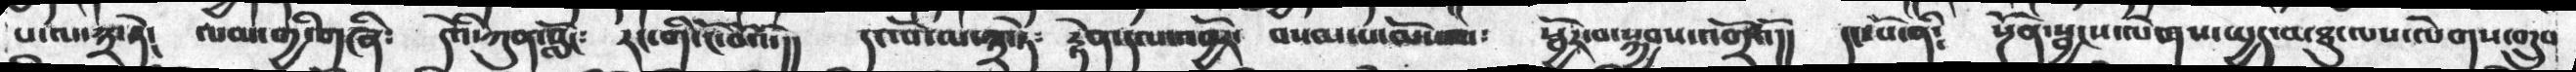ལ་ལ་༣་སྟེ༴   ལམ་གྱི་གཞི༴   དེའི་ཀུན་སློང༴    རང་གི་ངོ་བོའོ་།།   དང་པོ་མ་༣་ཏེ༴   རྟེན་དལ་འབྱོར་   བསམ་པ་མོས་པ༴  སྦྱོར་བ་སྐྱབས་འགྲོའོ།།   དང་པོ་ནི༴    སྔོན་སྦྱངས་ལེགས་སྤྱད་མཐུ་ལས་ལེགས་གྲུབ
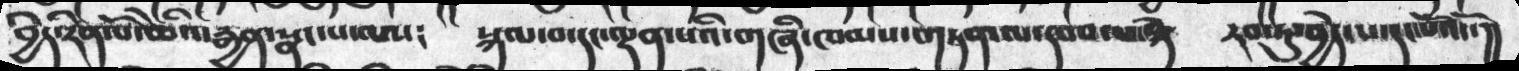བྱིད་རིན་པོ་ཆེའི་རྒྱན་སྣང་པ་ལས༴ སྐལ་བ་དང་ལྡན་པའི་གཞི་ཁམས་གཏན་ལ་དབབ་པ་སྟེ རབ་ཏུ་བྱེད་པ་དང་པོའོ་།།
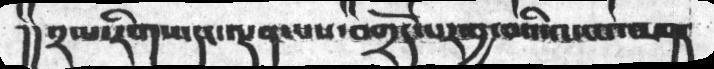།།༢་པ་རིགས་དང་ལྡན་པས་བགྲོད་པར་བྱ་བའི་ལམ་བཤད
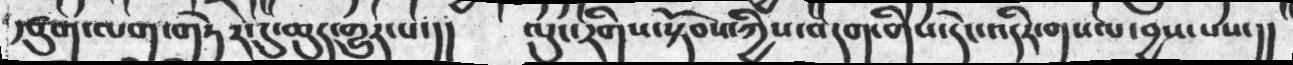ཙུག་ལག་གཏེར་དུ་ཆུད་གྱུར་པ་།། ལུང་རིགས་སྟོབས་ཀྱིས་བདག་གིས་དེང་འདིར་གསལ་བྱས་པས་།།
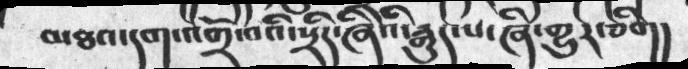མཐའ་དག་འགྲོ་བའི་སྲིད་ཞིའི་རྒུད་པ་ཞི་གྱུར་ཅིག།
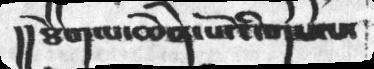།།ཐེག་པ་ཆེན་པོའི་གསལ་
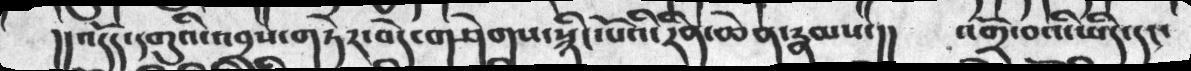།།འདོད་དགུའི་འབྲས་གཏེར་བདེ་གཤེགས་སྙིང་པོའི་རིན་ཆེན་རྣམས་།། འགྲོ་བའི་ཡིད་དང་
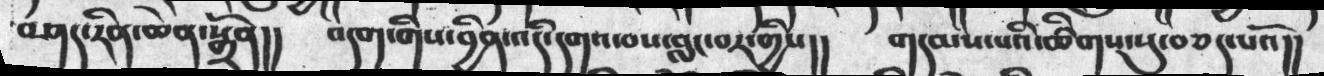བཤད་རིན་ཆེན་སྒྲོན།། བདག་གིས་བྱིན་འདི་དགའ་བས་བླང་བར་གྱིས།། གདམས་པའི་ཚིགས་སུ་བཅད་པའོ།།
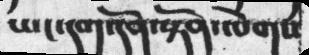ཡང་དག་དོན་སྟོན་ལེགས
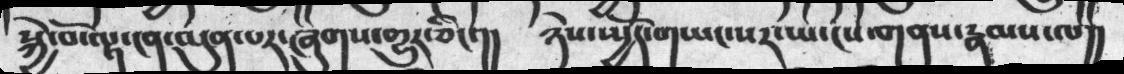སྐྱེ་བོ་ལྟ་ངན་མུན་པར་ཞུགས་གྱུར་ཅིང་།། ཉེས་སྤྱོད་གཡང་སར་ཡ་ངས་གནས་རྣམས་ལ།།
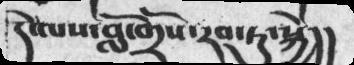དེ་ལས་བློ་གྲོས་རབ་ཏུ་སྐྱེ།།
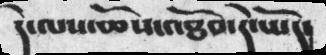དེ་ལས་ཆོས་འཐོབ་དེ་ཡོང་
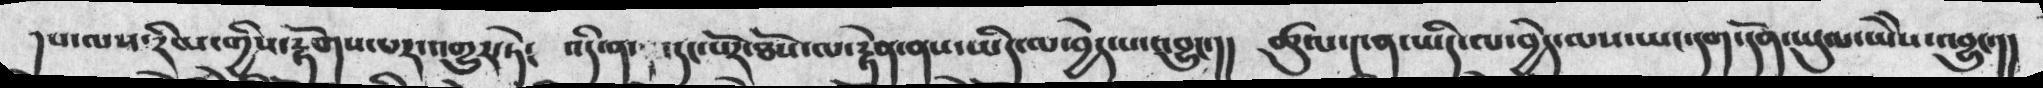།པ་ལས་རིམ་གྱིས་རྟོགས་པར་འགྱུར་ཏེ༴ འདི་ན་ ་དང་པོར་ཐོས་ལ་རྟེན་ནས་ཡིད་ལ་བྱེད་པ་འབྱུང་།། ཚུལ་༤ན་ཡིད་ལ་བྱེད་ལས་ཡང་དག་དོན་ཡུལ་ཡཻས་འབྱུང་།།
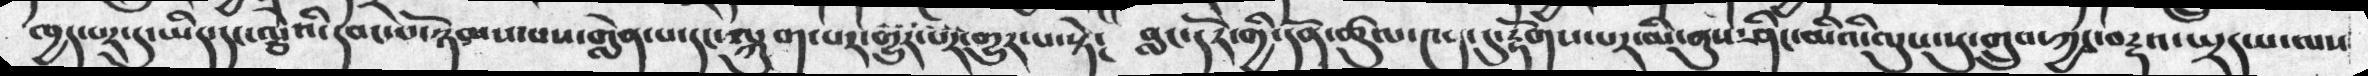ཁྱད་པར་དུ་ཡིད་དང་ལྕེའི་དབང་པོ་ཉམས་པས་གླེན་པ་དང་ལྐུག་པར་གྱུར་པ་སྟེ༴ བླང་དོར་གྱི་དོན་ཚུལ་༤ན་དུ་རྟོགས་པར་མི་ནུས་ཤིང་མིའི་ལུས་སུ་གྲུབ་ཀྱང་བརྡའ་སྤྲད་པ་ལས
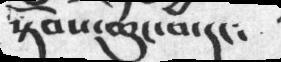སྟོབས་ཆུང་བ་དང༴
